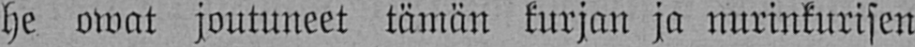he owat joutuneet tämän kurjan ja nurinkurisen
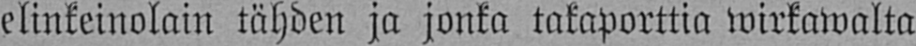elinkeinolain tähden ja jonka takaporttia wirkawalta
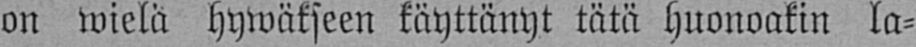on wielä hywäkseen käyttänyt tätä huonoakin la-
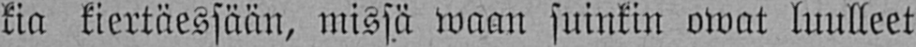kia kiertäessään, missä waan suinkin owat luulleet
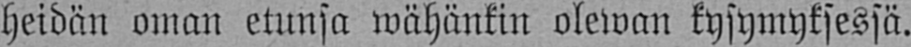heidän oman etunsa wähänkin olewan kysymyksessä.
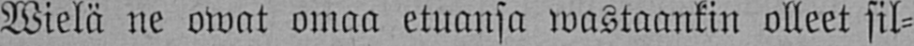Wielä ne owat omaa etuansa wastaankin olleet sil-
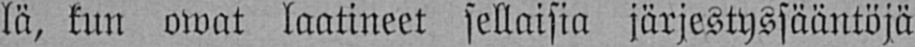lä, kun owat laatineet sellaisia järjestyssääntöjä
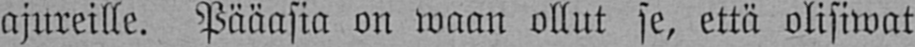ajureille. Pääasia on waan ollut se, että olisiwat
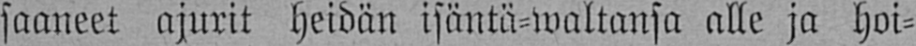saaneet ajurit heidän isäntä-waltansa alle ja hoi-
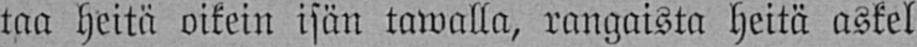taa heitä oikein isän tawalla, rangaista heitä askel
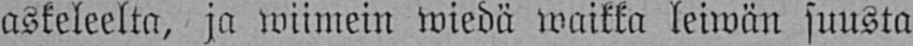askeleelta, ja wiimein wiedä waikka leiwän suusta
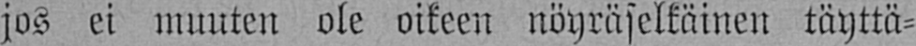jos ei muuten ole oikeen nöyräselkäinen täyttä-
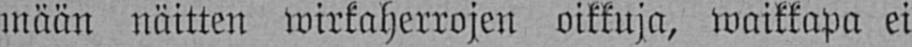mään näitten wirkaherrojen oikkuja, waikkapa ei
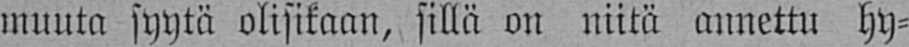muuta syytä olisikaan, sillä on niitä annettu hy-
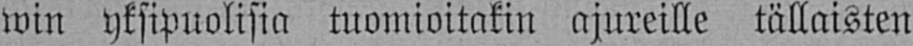win yksipuolisia tuomioitakin ajureille tällaisten
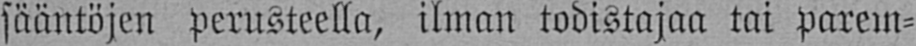sääntöjen perusteella, ilman todistajaa tai parem-
